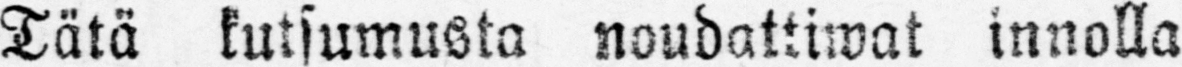Tätä kutsumusta noudattiwat innolla
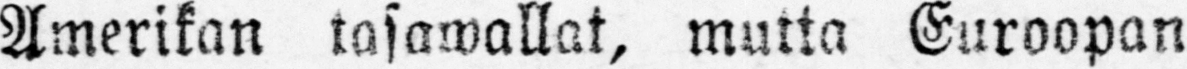Amerikan tasawallat, mutta Euroopan
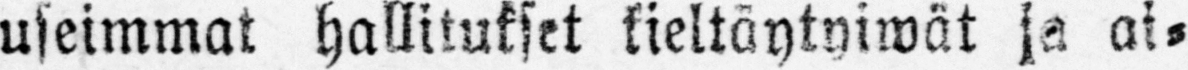useimmat hallitukset kieltäytyiwät ja ai-
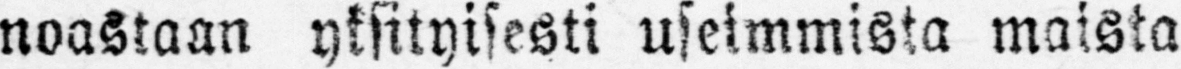noastaan yksityisesti useimmista maista
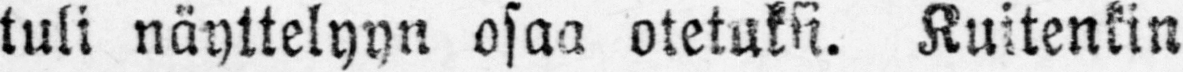tuli näyttelyyn osaa otetuksi. Kuitenkin
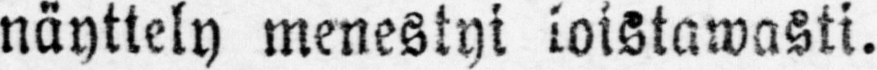näyttely menestyi ioistawasti.
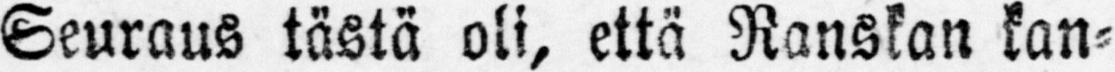Seuraus tästä oli, että Ranskan kan-
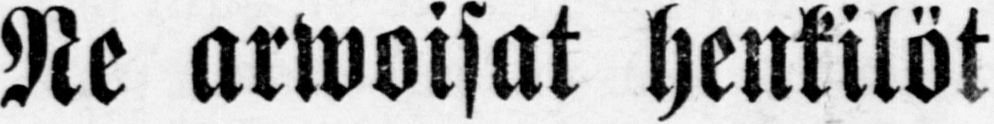Ne arwoisat henkilöt
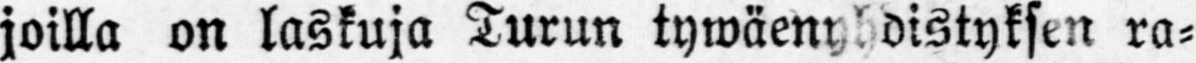joilla on laskuja Turun tywäenyhdistyksen ra-
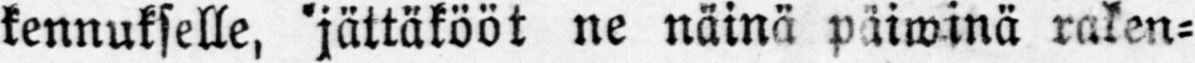kennukselle, jättäkööt ne näinä päiwinä raken-
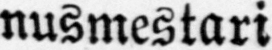nusmestari
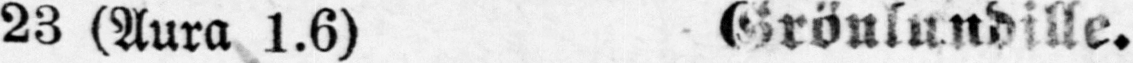23 (Aura 1.6) Grönlundille.
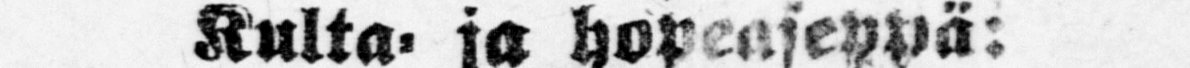Kulta- ja hopeaseppä:
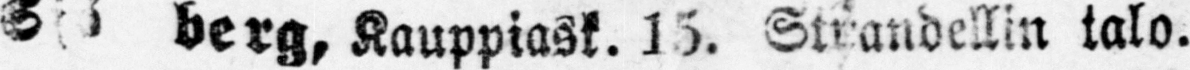S berg, Kauppiask, 15 . Strandellin talo.
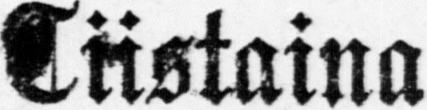Tiistaina
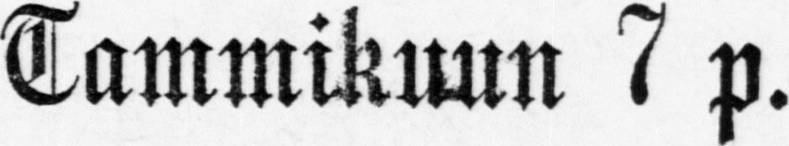Tammikuun 7 p.
